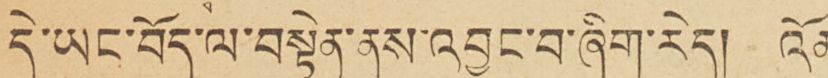དེ་ཡང་བོད་ལ་བསྟེན་ནས་འབྱུང་བ་ཞིག་རེད། འོན་
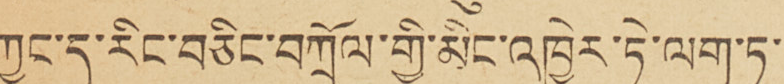ཀྱང་ད་རིང་བཅིང་བཀྲོལ་གྱི་མིང་འཁྱེར་ཏེ་ལག་ཏུ་
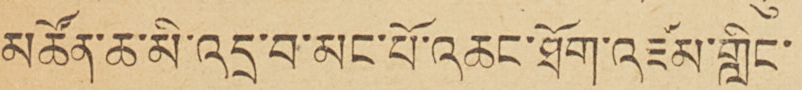མཚོན་ཆ་མི་འདྲ་བ་མང་པོ་འཆང་ཐོག་འཛམ་གླིང་
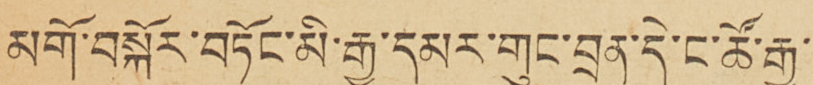མགོ་བསྐོར་བཏོང་མི་རྒྱ་དམར་གུང་བྲན་དེ་ང་ཚོ་རྒྱ་
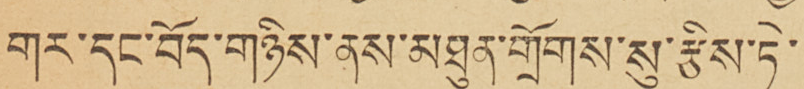གར་དང་བོད་གཉིས་ནས་མཐུན་གྲོགས་སུ་རྩིས་ཏེ་
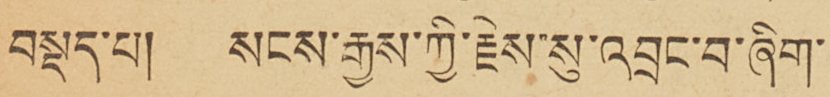བསྡད་པ། སངས་རྒྱས་ཀྱི་རྗེས་སུ་འབྲང་བ་ཞིག་
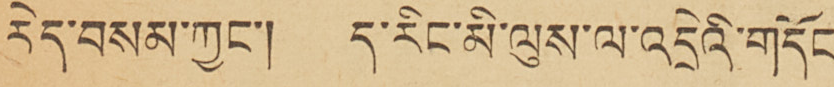རེད་བསམ་ཀྱང་། ད་རིང་མི་ལུས་ལ་འདྲེའི་གདོང་
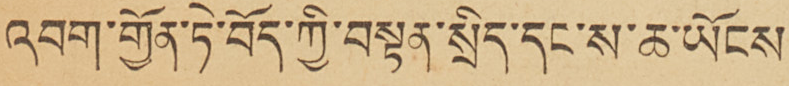འབག་གྱོན་ཏེ་བོད་ཀྱི་བསྟན་སྲིད་དང་ས་ཆ་ཡོངས་
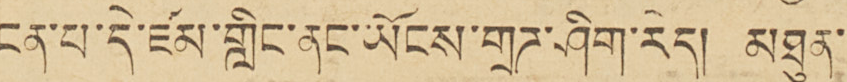ངན་པ་དེ་ཛམ་གླིང་ནང་ཡོངས་གྲཊ་ཤིག་རེད། མཐུན་
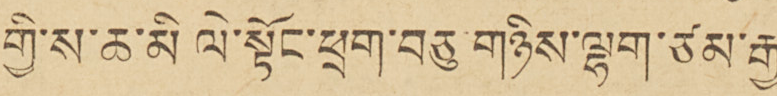གྱི་ས་ཆ་མི ལེ་སྟོང་ཕྲག་བཅུ་གཉིས་ལྷག་ཙམ་རྒྱ་
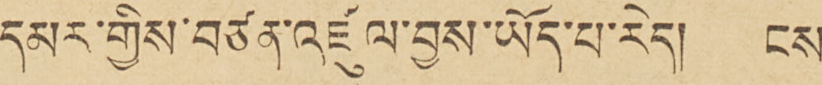དམར་གྱིས་བཙན་འཛུལ་བྱས་ཡོད་པ་རེད། ངས་
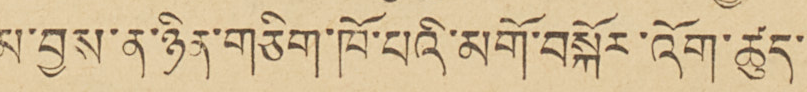མ་བྱས་ན་ཉིན་གཅིག་ཁོ་པའི་མགོ་བསྐོར་འོག་ཚུད་
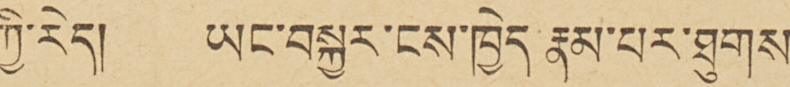ཀྱི་རེད། ཡང་བསྐྱར་ངས་ཁྱེད་རྣམ་པར་ཐུགས་
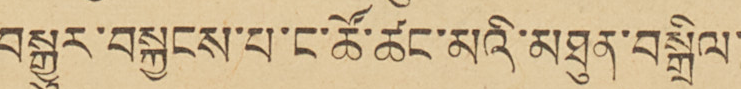བསྒྱུར་བསྐྱངས་པ་ང་ཚོ་ཚང་མའི་མཐུན་བསྒྲིལ་
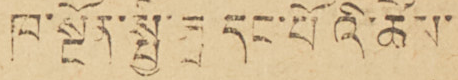ཁ་སྔོན་སྤྱི་ཟླ་དང་པོའི་ཚེས་
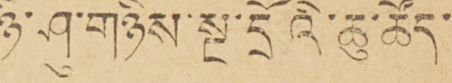ཉི་ཤུ་གཉིས་སྔ་དྲོའི་ཆུ་ཚོད་
